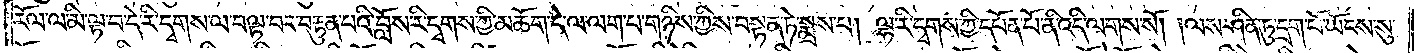རོལ་ལ་མི་ལྟ་བ་དེ་རི་དྭགས་ལ་བལྟ་བར་བརྟུན་པའི་བློས་རི་དྭགས་ཀྱི་མཆོག་དེ་ལ་ལག་པ་གཉིས་ཀྱིས་བསྟན་ཏེ་སྨྲས་པ། ལྷ་རི་དྭགས་ཀྱི་དཔོན་པོ་ནི་འདི་ལགས་སོ། །ལས་ཤིན་ཏུ་དྲག་པོ་ཡོངས་སུ་
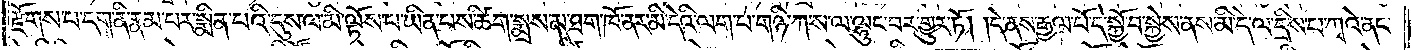རྫོགས་པ་དག་ནི་རྣམ་པར་སྨིན་པའི་དུས་ལ་མི་ལྟོས་པ་ཡིན་པས་ཚིག་སྨྲས་མ་ཐག་ཁོ་ནར་མི་དེའི་ལག་པ་གཉི་ཀ་ས་ལ་ལྷུང་བར་གྱུར་ཏོ། །དེ་ནས་རྒྱལ་པོ་དེ་སྐྱོ་བ་སྐྱེས་ནས་མི་དེ་ལ་དྲིས་པ་ཀྭའེ་ནང་
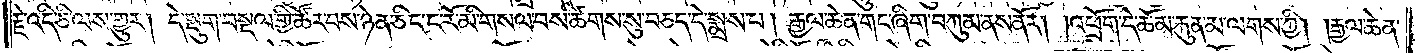རྗེ་འདི་ཅི་ལས་གྱུར། དེ་སྡུག་བསྔལ་གྱི་ཚོར་བས་ཉེན་ཅིང་ང་རོ་མི་གསལ་བས་ཚིགས་སུ་བཅད་དེ་སྨྲས་པ། རྒྱལ་ཆེན་གང་ཞིག་བཀུམ་ནས་ནོར། །འཕྲོག་དེ་ཆོམ་རྐུན་མ་ལགས་ཀྱི། །རྒྱལ་ཆེན་
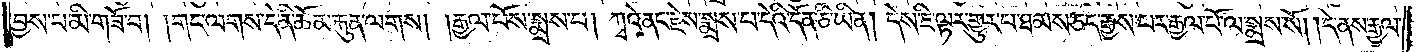བྱས་པ་མི་གཟོ་བ། །གང་ལགས་དེ་ནི་ཆོམ་རྐུན་ལགས། །རྒྱལ་པོས་སྨྲས་པ། ཀྭའེ་ནང་རྗེས་སྨྲས་པ་དེའི་དོན་ཅི་ཡིན། དེས་ཇི་ལྟར་གྱུར་པ་ཐམས་ཅད་རྒྱས་པར་རྒྱལ་པོ་ལ་སྨྲས་སོ། །དེ་ནས་རྒྱལ་
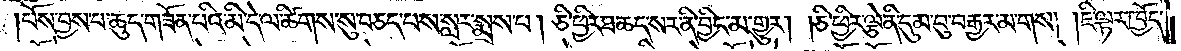པོས་བྱས་པ་ཆུད་གཟོན་པའི་མི་དེ་ལ་ཚིགས་སུ་བཅད་པས་སླར་སྨྲས་པ། ཅི་ཕྱིར་ཐ་ཆད་སར་ནི་བྱིང་མ་གྱུར། །ཅི་ཕྱིར་ལྕེ་ནི་དུམ་བུ་བརྒྱར་མ་གས། །ཇི་ལྟར་ཁྱོད་
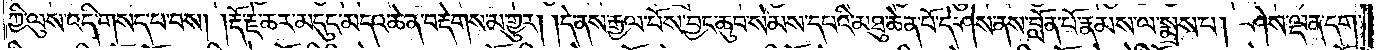ཀྱི་ལུས་འདི་གསད་པ་བས། །རྡོ་རྗེ་ཆར་མདུང་མདའ་ཆེན་བརྡེགས་མ་གྱུར། །དེ་ནས་རྒྱལ་པོས་བྱང་ཆུབ་སེམས་དཔའི་མཐུ་ཆེན་པོ་དེ་ཤེས་ནས་བློན་པོ་རྣམས་ལ་སྨྲས་པ། ཤེས་ལྡན་དག་
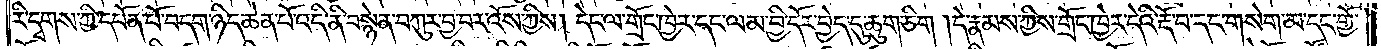རི་དྭགས་ཀྱི་དཔོན་པོ་བདག་ཉིད་ཆེན་པོ་འདི་ནི་བསྙེན་བཀུར་བྱ་བར་འོས་ཀྱིས། དེང་ལ་གྲོང་ཁྱེར་དང་ལམ་བྱི་དོར་བྱེད་དུ་ཆུག་ཅིག །དེ་རྣམས་ཀྱིས་གྲོང་ཁྱེར་དེའི་རྡོ་བ་དང་གསེག་མ་དང་གྱོ་
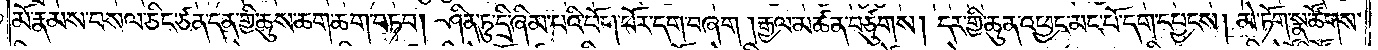མོ་རྣམས་བསལ་ཅིང་ཙན་དན་གྱི་ཆུས་ཆག་ཆག་བཏབ། ཤིན་ཏུ་དྲི་ཞིམ་པའི་པོག་ཕོར་དག་བཞག །རྒྱལ་མཚན་བཙུགས། དར་གྱི་ཆུན་འཕྱང་མང་པོ་དག་དཔྱངས། མེ་ཏོག་སྣ་ཚོགས་
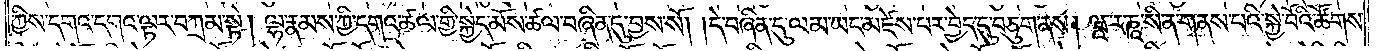ཀྱིས་དགའ་དགའ་ལྟར་བཀྲམ་སྟེ། ལྷ་རྣམས་ཀྱི་དགའ་ཚལ་གྱི་སྐྱེད་མོས་ཚལ་བཞིན་དུ་བྱས་སོ། །དེ་བཞིན་དུ་ལམ་ཡང་མཛེས་པར་བྱེད་དུ་བཅུག་ནས། ཝཱ་ར་ཎཱ་སི་ན་གནས་པའི་སྐྱེ་བོའི་ཚོགས་
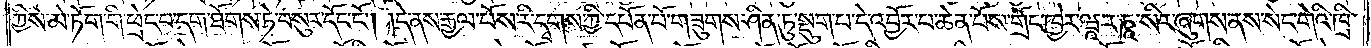ཀྱིས་མེ་ཏོག་གི་ཕྲེང་བ་དག་ཐོགས་ཏེ་བསུར་དོང་ངོ༌། །དེ་ནས་རྒྱལ་པོས་རི་དྭགས་ཀྱི་དཔོན་པོ་གཟུགས་ཤིན་ཏུ་སྡུག་པ་དེ་འབྱོར་པ་ཆེན་པོས་གྲོང་ཁྱེར་ཝཱ་ར་ཎཱ་སིར་ཞུགས་ནས་སེང་གེའི་ཁྲི་
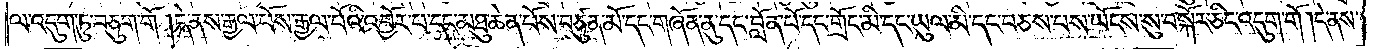ལ་འདུག་ཏུ་བཅུག་གོ །དེ་ནས་རྒྱལ་པོས་རྒྱལ་པོའི་འབྱོར་པ་དང་མཐུ་ཆེན་པོས་བཙུན་མོ་དང་གཞོན་ནུ་དང་བློན་པོ་དང་གྲོང་མི་དང་ཡུལ་མི་དང་བཅས་པས་ཡོངས་སུ་བསྐོར་ཅིང་འདུག་གོ །དེ་ནས་
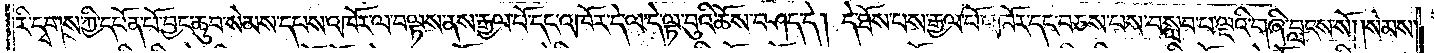རི་དྭགས་ཀྱི་དཔོན་པོ་བྱང་ཆུབ་སེམས་དཔས་འཁོར་ལ་བལྟས་ནས་རྒྱལ་པོ་དང་འཁོར་དེ་ལ་དེ་ལྟ་བུའི་ཆོས་བཤད་དེ། དེ་ཐོས་པས་རྒྱལ་པོ་འཁོར་དང་བཅས་པས་བསླབ་པ་ལྔའི་གཞི་བླངས་སོ། །སེམས་
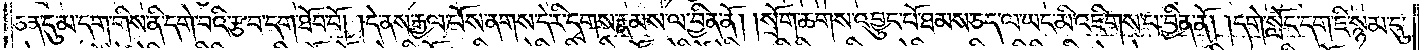ཅན་དུ་མ་དག་གིས་ནི་དགེ་བའི་རྩ་བ་དག་ཐོབ་བོ། །དེ་ནས་རྒྱལ་པོས་ནགས་དེ་རི་དྭགས་རྣམས་ལ་བྱིན་ནོ། །སྲོག་ཆགས་འབྱུང་པོ་ཐམས་ཅད་ལ་ཡང་མི་འཇིགས་པ་བྱིན་ནོ། །དགེ་སློང་དག་ཇི་སྙམ་དུ་
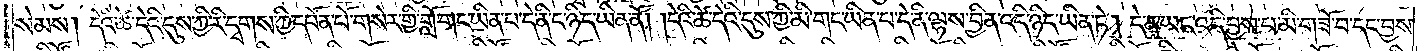སེམས། དེའི་ཚེ་དེའི་དུས་ཀྱི་རི་དྭགས་ཀྱི་དཔོན་པོ་གསེར་གྱི་གློ་གང་ཡིན་པ་དེ་ནི་ང་ཉིད་ཡིན་ནོ། །དེའི་ཚེ་དེའི་དུས་ཀྱི་མི་གང་ཡིན་པ་དེ་ནི་ལྷས་བྱིན་འདི་ཉིད་ཡིན་ཏེ། དེ་ན་ཡང་འདི་བྱས་པ་མི་གཟོ་བ་དང་བྱས་
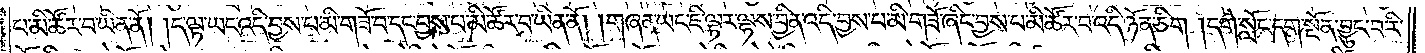པ་མི་ཚོར་བ་ཡིན་ནོ། །ད་ལྟ་ཡང་འདི་བྱས་པ་མི་གཟོ་བ་དང་བྱས་པ་མི་ཚོར་བ་ཡིན་ནོ། །གཞན་ཡང་ཇི་ལྟར་ལྷས་བྱིན་འདི་བྱས་པ་མི་གཟོ་ཞིང་བྱས་པ་མི་ཚོར་བ་འདི་ཉོན་ཅིག །དགེ་སློང་དག་སྔོན་བྱུང་བ་རི་
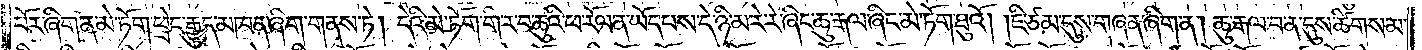པོར་ཞིག་ན་མེ་ཏོག་ཕྲེང་རྒྱུད་མཁན་ཞིག་གནས་ཏེ། དེའི་མེ་ཏོག་གི་ར་བ་ཆུའི་ཕ་རོལ་ན་ཡོད་པས་དེ་ཉི་མ་རེ་རེ་ཞིང་ཆུ་རྒལ་ཞིང་མེ་ཏོག་ཐུའོ། །ཇི་ཙམ་དུས་གཞན་ཞིག་ན། ཆུ་རྒལ་བ་ན་དུས་ཚིགས་མ་
